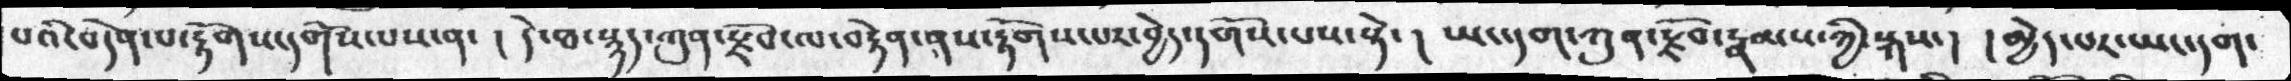པའི་བདེན་པ་རྟོགས་དགོས་པས་ན་།  དེ་ཐ་སྙད་ཀུན་རྫོབ་ལ་བརྟེན་ནས་རྟོགས་པར་བྱེད་དགོས་པས་སྟེ་། ཡང་དག་ཀུན་རྫོབ་རྣམས་ཀྱི་སྐས་། །མྱེད་པར་ཡང་དག་
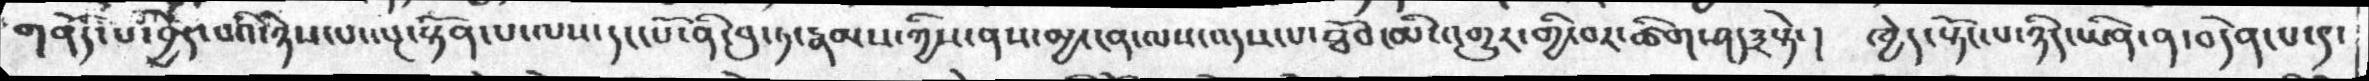གནོད་པ་བྱེད་པའི་ཉེས་པ་ལྔ་སྟོན་པ་ལས་དང་པོ་ནི་བུ་ཏ་རྣམས་ཀྱིས་ནས་མྱ་ངན་ལས་འདས་པ་ཐོབ་མི་འགྱུར་གྱི་བར་ཚིག་ཤད༣སྟེ་།  ཁྱེད་སྟོང་པ་ཉིད་ཡིན་ན་བདེན་པ་༩་
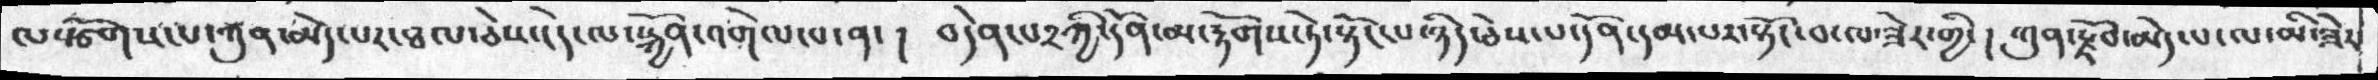ལསྩོགས་པ་ཀུན་མེད་པར་ཐལ་ཅེས་ངེད་ལ་སྐྱོན་འགེལ་པ་ན་།  བདེན་པ༢ཀྱི་དོན་མ་རྟོགས་ཏེ་སྟོང་པ་ཉིད་ཅེས་པ་དོན་དམ་པར་སྟོང་བ་ལ་ཟེར་གྱི་།  ཀུན་སྫོབ་མེད་པ་ལ་མི་ཟེར་
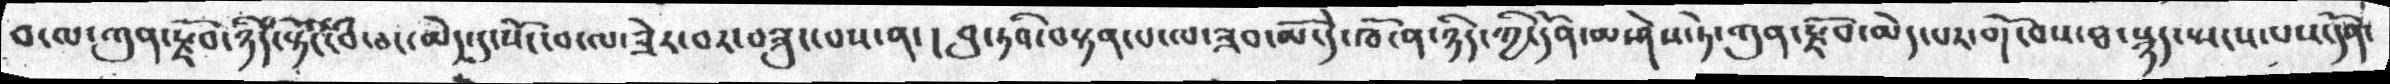བ་ལ་ཀུན་སྫོབ་ཉིདཾ་སྟོང་བཾ་ཅང་མེད་དུ་སོང་བ་ལ་ཟེར་བར་བཟུང་པས་ན་། བུ་ཏའི་བསྟན་པ་ཟབ་མོ་དེ་ཁོ་ན་ཉིད་ཀྱི་དོན་མ་ཤེས་ཏེ་ཀུན་སྫོབ་མེད་པར་གོ་བས་ཐ་སྙད་ཡངས་པས་དོན་
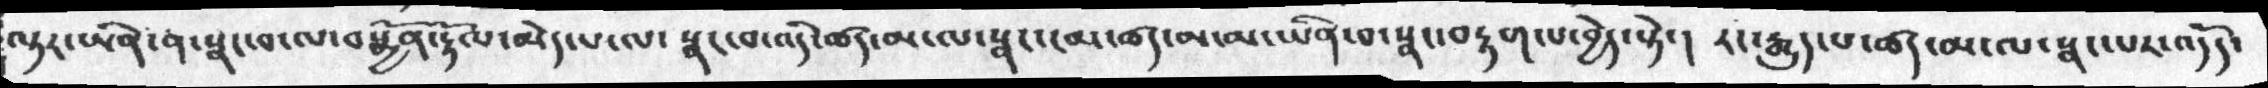ལྟར་ཡིན་ན་སྣང་བ་ལ་བསྐྱོན་རྟོལ་མེད་པ་ལ་ སྣང་བ་འདི་ཚད་མ་ལ་སྣང་ངམ་ཚད་མ་ཡིན་པ་སྣང་བརྟག་པ་བྱེད་སྟེ་།  རང་རྒྱུད་པ་ཚད་མ་ལ་སྣང་པར་འདོད་
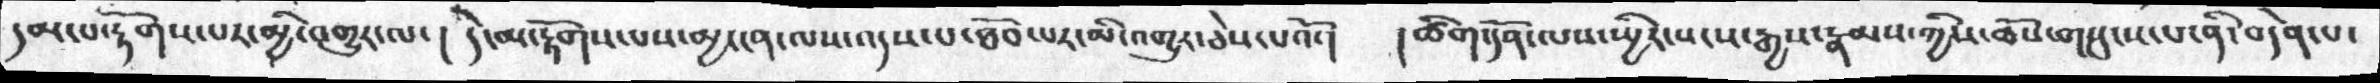དམ་པ་རྟོགས་པར་མྱི་འགྱུར་ལ་། དེ་མ་རྟོགས་པས་མྱ་ངན་ལས་འདས་པ་ཐོབ་པར་མི་འགྱུར་ཅེས་པའོ་།  །ཚིག་དོན་ལས་སྤྱིར་སངས་རྒྱས་རྣམས་ཀྱིས་ཆོས་གསུངས་པ་ནི་བདེན་པ་
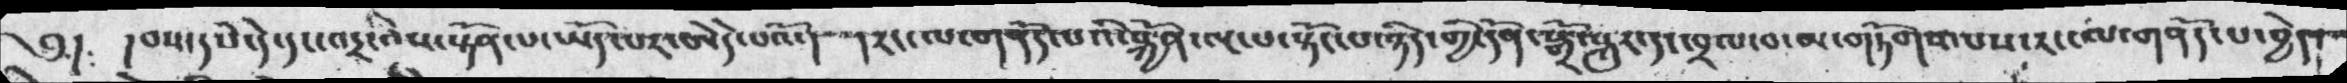༅།  །བས་དཔེ་དེ་དང་འདྲ་བས་སྟོན་པ་ཡོད་པར་ཨེདེ་པའོ་།  །རང་ལ་གནོད་པའི་སྐྱོན་ལྔ་པ་སྟོང་པ་ཉིད་གྱི་དོན་སྒྲོ་སྐུར་དང་བྲལ་བ་མ་གཏོགས་པས་རང་ལ་གནོད་པ་བྱེད་
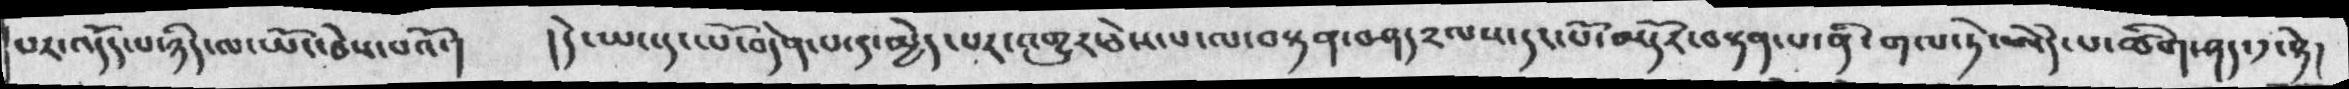པར་འདོད་པ་ཉིད་ལ་ཡོག་ཅེས་པའོ་།  །དེ་ཡང་དང་པོ་བདེན་པ་༩་མྱེད་པར་འགྱུར་ཅེས་པ་ལ་བསྟན་བཤད༢ལས་དང་པོ་མདོར་བསྟན་པ་ནི་གལ་ཏེ་ཨེདེ་པ་ཚིག་ཤད་༡་སྟེ།
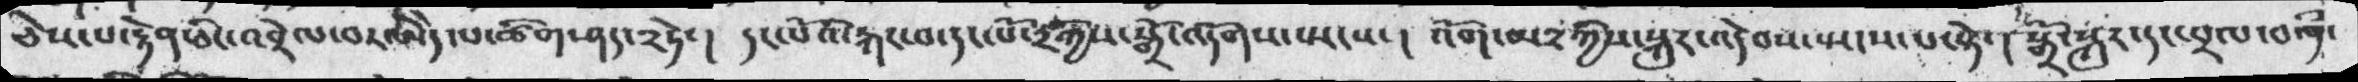ཅེས་པ་རྟེན་ཅིང་འབྲེལ་བར་ཨེདེ་པ་ཚིག་ཤད་༢ཏེ་། དང་པོའི་རྐང་བ་དང་པོ་༢ཀྱིས་སྒྲོ་འདོགས་སྤངས་། འོག་མ༢ཀྱིས་སྐུར་འདེབས་སྤངས་པ་སྟེ་། སྒྲོ་སྐུར་དང་བྲལ་བའི་
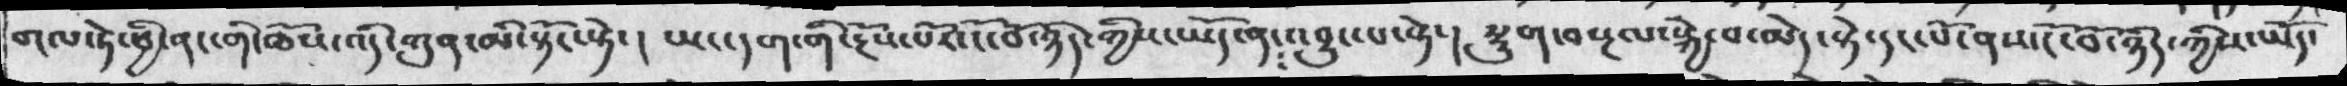གལ་ཏེ་ཕྱི་ནང་གི་ཆོས་ཀུན་མི་སྟོང་སྟེ་། ཡང་དག་གི་རྔོས་པོར་ངོ་བོ་ཉིད་ཀྱིས་ཡོད་ན༴འབྱུང་པ་སྟེ་། སྡུག་བསྔལ་སྐྱེ་བ་མེད་སྟེ་དང་པོ་ནས་ངོ་བོ་ཉིད་ཀྱིས་ཡོད་
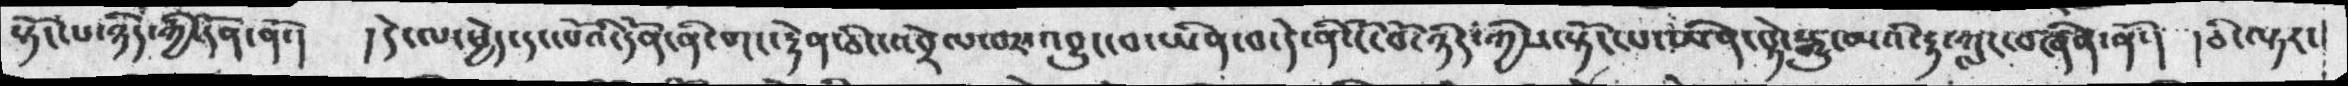སྟོང་པ་ཉིད་ཀྱི་དོན་ནོ་།  །དེ་ལ་ཕྱེད་དང་པོའི་དོན་ནི་གང་རྟེན་ཅིང་འབྲེལ་བར་འབྱུང་བ་ཡིན་བ་དེ་ནི་ངོ་བོ་ཉིད་ཀྱིས་སྟོང་པ་ཡིན་སྟེ་སྒྱུ་མའི་རྟ་གླང་བཞིན་ནོ་། །ཅི་ལྟར་
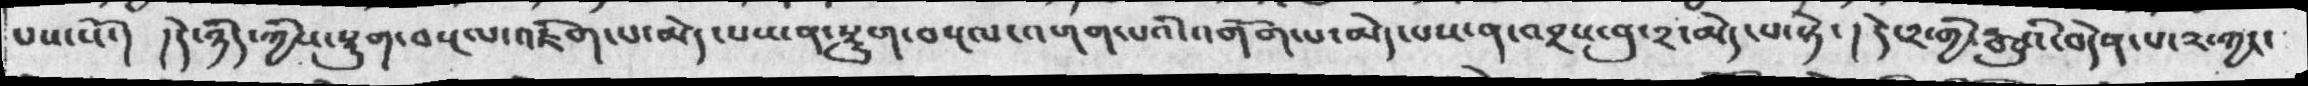པས་སོ་། །དེ་ཉིད་ཀྱིས་སྡུག་བསྔལ་འཇིག་པ་མེད་པས་ན་སྡུག་བསྔལ་འགག་པའི་འགོག་པ་མེད་པས་ན་འབྲས་བུ་༢་མེད་པ་སྟེ་། དེ་༢་གྱི་རྒྱུའི་བདེན་པ་༢་ཀྱང་
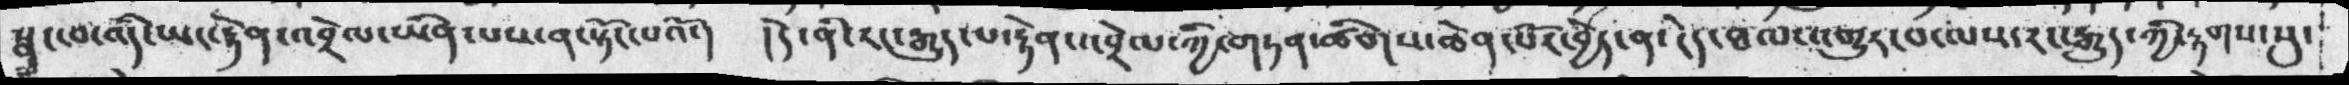སྣང་བ་འདི་ཡང་རྟེན་འབྲེལ་ཡིན་པས་ན་སྟོང་པའོ་།  །དེ་ནི་རང་རྒྱུད་པ་རྟེན་འབྲེལ་ཀྱི་གཏན་ཚིགས་ཆེན་པོར་བྱེད་ན་ངེད་ཐལ་འགྱུར་བ་ལས་རང་རྒྱུད་ཀྱི་རྟགས་སུ་
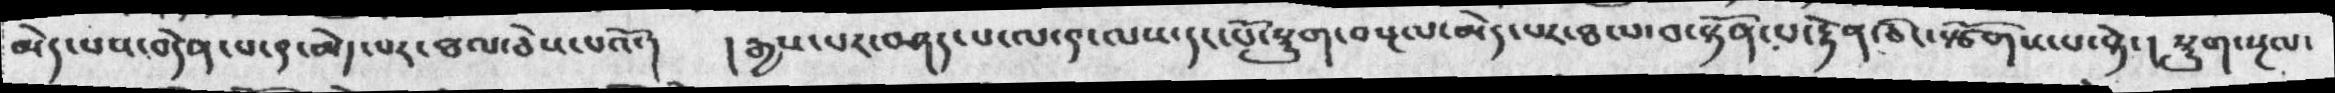མེད་པས་བདེན་པ་༩་མེད་པར་ཐལ་ཅེས་པའོ་།  །རྒྱས་པར་བཤད་པ་ལ་༢་ལས་དང་པོ་སྡུག་བསྔལ་མེད་པར་ཐལ་བ་སྟོན་པ་རྟེན་ཅིང་སྩོགགས་པ་སྟེ་། སྡུག་སྔལ་
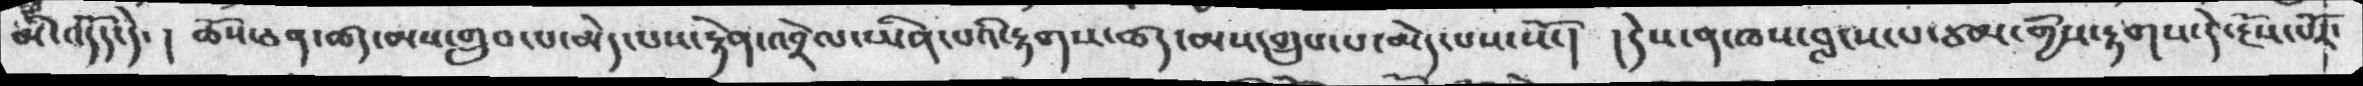མི་འདོད་དེ་། ཆོས་ཅན་ཚད་མས་གྲུབ་པ་མེད་པས་རྟེན་འབྲེལ་ཡིན་པའི་རྟགས་ཚད་མས་གྲུབ་པ་མེད་པས་སོ་། །དེས་ན་ཁས་བླངས་པ་ཙམ་གྱིས་རྟགས་དེ་རྔོས་པོར་
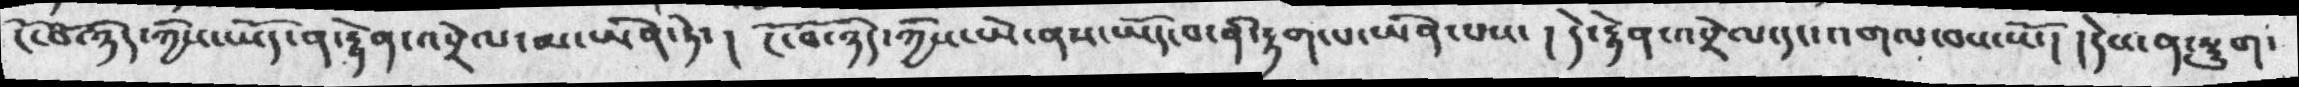ངོ་བོ་ཉིད་ཀྱིས་ཡོད་ན་རྟེན་འབྲེལ་མ་ཡིན་ཏེ་། ངོ་བོ་ཉིད་ཀྱིས་ཡེ་ནས་ཡོད་བ་ནི་རྟག་པ་ཡིན་པས་། རྟེན་འབྲེལ་དང་འགལ་བས་སོ་། །དེས་ན་སྡུག་
